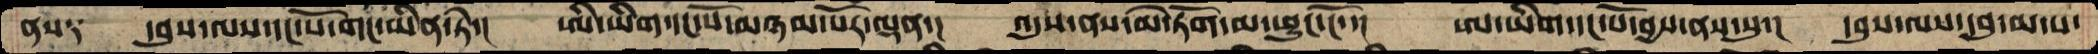ནས༑  དབུས་ལས་དང་པོ་གང་ཡིན་ཏེ་།  ཨི་ཡིག་དང་པོ་མཉམ་པོར་ལྡན་།  འདུས་ནས་མེ་ཏོག་མ་ཕྱུང་ངོ་་།  ཨ་ཡིག་དང་པོ་བྱས་ནས་སུ་།  དབུས་ལས་དབུ་མ་ས་
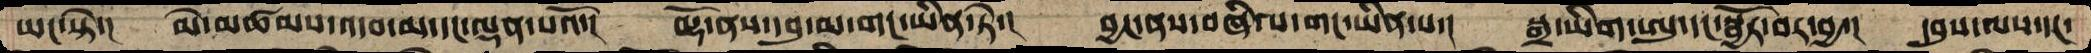ཡང་སྟེ་།  མེ་མཚམས་འདབ་མ་དང་ལྡན་པའོ་།  ལྷོ་ནས་དབུ་མ་གང་ཡིན་ཏེ་།  བྱང་ནས་བཞི་པ་གང་ཡིན་པ་།  སྒྲ་ཡིག་ཨུ་དང་སྦྱོར་བར་བྱ་།  དབུས་ལས་དང་
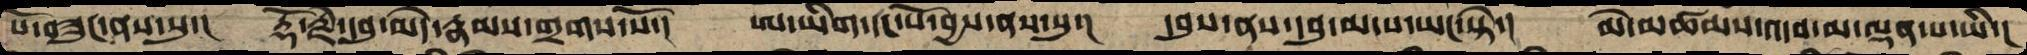པོ་བཟུང་ནས་སུ་།  རྡོ་རྗེ་དབུ་མེད་རྣམས་གྲགས་སོ་།  ཨ་ཡིག་དང་པོ་བྱས་ནས་སུ་།  དབུས་ནས་དབུ་མ་པ་ཡང་སྟེ་།  མེ་མཚམས་འདབ་མ་ལྡན་པ་ཡི་།
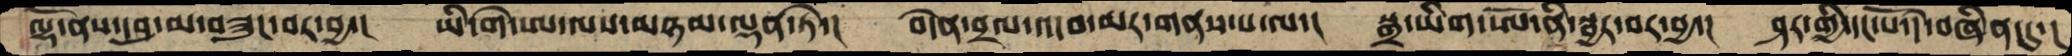ལྷོ་ནས་དབུ་མ་བཟུང་བར་བྱ་།  ཡི་གེ་ཨ་ལས་མཉམ་ལྡན་ཏེ་།  བདེན་བྲལ་འདབ་མར་གནས་པ་ལ་།  སྒྲ་ཡིག་ཨོ་ནི་སྦྱར་བར་བྱ་།  ཤར་གྱི་དང་པོ་དེ་བཞིན་དུ་།
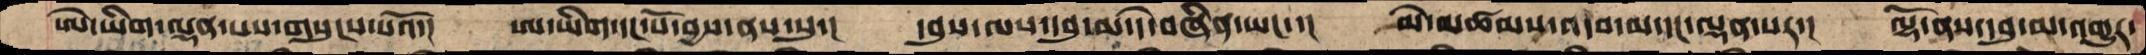ཨེ་ཡིག་ལྡན་པས་གསུངས་པའོ་།  ཨ་ིཡིག་དང་པོ་བྱས་ནས་སུ་།  དབུས་ལས་དབུ་མ་དེ་བཞིན་ཡང་་།  མེ་མཚམས་འདབ་མ་དང་ལྡན་པར་།  ལྷོ་ནས་དབུ་མ་འགྱུར་
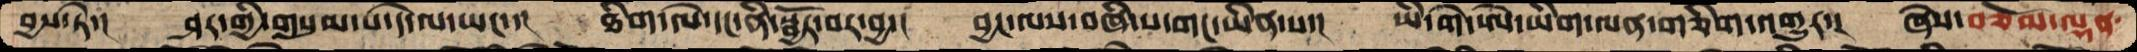བྱས་ཏེ་།  ཤར་གྱི་གསུམ་པ་དེ་ལ་ཡང་་།  ཐིག་ལེ་དང་ནི་སྦྱོར་བར་བྱ་།  བྱང་ལས་བཞི་པ་གང་ཡིན་པ་།  ཡི་གེ་ཨེ་ཡིག་ལན་གཅིག་འགྱུར་།  ཞེས་བཅོམ་ལྡན་
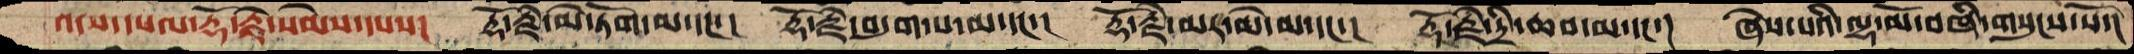འདས་དཔལ་རྡོ་རྗེ་སེམས་དཔས་།  རྡོ་རྗེ་མེ་ཏོག་མ་དང་་།  རྡོ་རྗེ་བདུག་པ་མ་དང་་།  རྡོ་རྗེ་མར་མེ་མ་དང་་།  རྡོ་རྗེ་དྲི་ཆབ་མ་དང་་།  ཞེས་པའི་ལྷ་མོ་བཞི་གསུངས་སོ་།
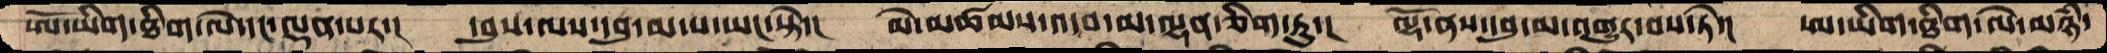ཨོ་ཡིག་ཐིག་ལེ་དང་ལྡན་པར་།  དབུས་ལས་དབུ་མ་པ་ཡང་སྟེ་།  མེ་མཚམས་འདབ་མ་ལྷན་ཅིག་ཏུ་།  ལྷོ་ནས་དབུ་མ་འགྱུར་བས་ཏེ་།  ཨ་ཡིག་ཐིག་ལེ་མཉཾ་
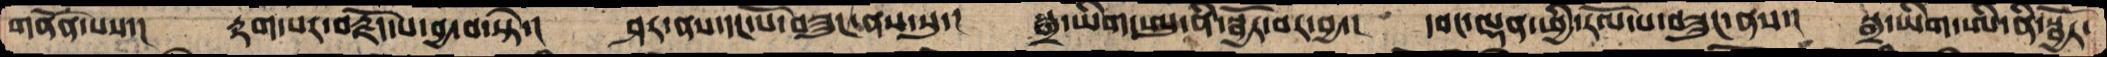གནོན་པས་།  རྟག་པར་བརྗོད་པ་བྱ་བ་སྟེ་།  ཤར་ནས་དང་པོ་བཟུང་ནས་སུ་།  སྒྲ་ཡིག་ཨུ་ནི་སྦྱོར་བར་བྱ་།  དབང་ལྡན་ཕྱི་རོལ་ས་བཟུང་ནས་།  སྒྲ་ཡིག་ཨི་ནི་སྦྱོར་
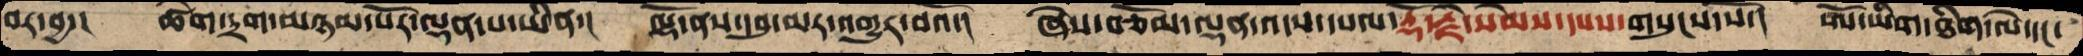བར་བྱ་།  ཚེག་དྲག་མཉམ་པོར་ལྡན་པ་ཡིན་།  ལྷོ་ནས་དབུ་མར་འགྱུར་བའོ་།  ཞེས་བཅོམ་ལྡན་འདས་དཔལ་རྡོ་རྗེ་སེམས་དཔས་གསུངས་སོ་།  ཨོ་ཡིག་ཐིག་ལེ་དང་
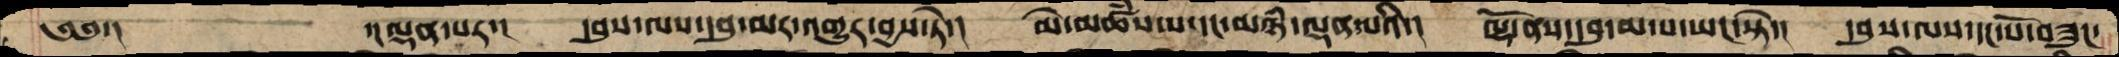༄༅་།    ་།ལྡན་པར་།  དབུས་ལས་དབུ་མར་འགྱུར་བྱས་ཏེ་།  མེ་མཚཾས་ས་དང་མཉཾ་ལྡན་པའི་།  ལྷོ་ནས་དབུ་མ་པ་ཡང་སྟེ་།  དབུས་ལས་དང་པོ་བཟུང་
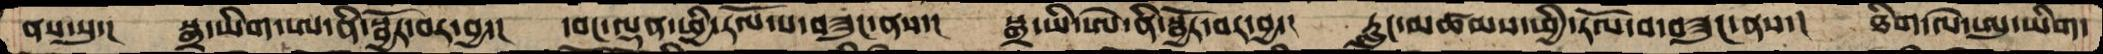ནས་སུ་།  སྒྲ་ཡིག་ཨ་ནི་སྦྱོར་བར་བྱ་།  དབང་ལྡན་ཕྱི་རོལ་ས་བཟུང་ནས་།  སྒྲ་ཡི་ཨེ་ནི་སྦྱོར་བར་བྱ་།  རླུང་མཚམས་ཕྱི་རོལ་བ་བཟུང་ནས་།  ཐིག་ལེ་ཨུ་ཡིག་
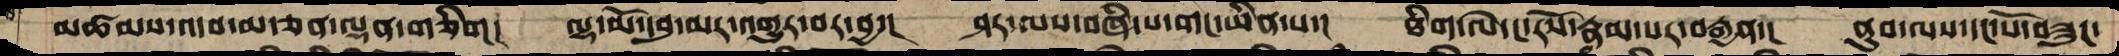མཚམས་འདབ་མ་ཅན་ལྡན་གཅིག། ལྷ་མོ་དབུ་མར་འགྱུར་བར་བྱ་། ཤར་ལས་བཞི་པ་གང་ཡིན་པ་། ཐིག་ལེ་ང་རོས་རྣམ་པར་བརྒྱན་། ནུབ་ལས་དང་པོ་བཟུང་
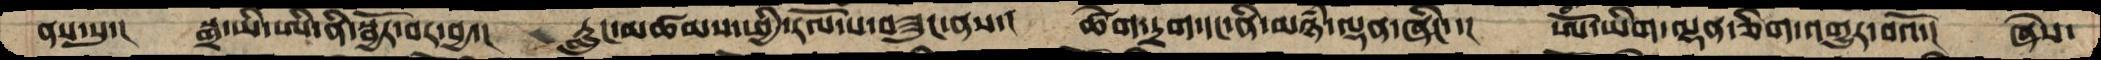ནས་སུ་།  སྒྲ་ཡི་ཨི་ནི་སྦྱོར་བར་བྱ་།  རླུང་མཚམས་ཕྱི་རོལ་པ་བཟུང་ནས་།  ཚེག་དྲག་དང་ནི་མཉཾ་ལྡན་ཞིང་་།  ཨོཾ་ཡིག་ལྷན་ཅིག་འགྱུར་བའོ་།  ཞེས་
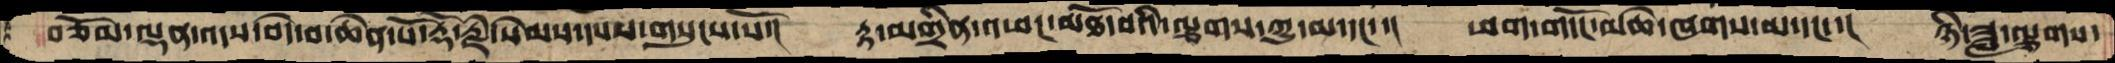བཅོམ་ལྡན་འདས་བདེ་བ་ཆེན་པོ་རྡོ་རྗེ་སེམས་དཔས་གསུངས་སོ་།  རྟ་མགྲིན་འཕཌ་མཐོ་བའི་ལྕགས་ཀྱུ་མ་དང་་།  ཕག་གདོང་མཆེ་ཞགས་མ་དང་་།   ཉི་ཟླ་ལྕགས་
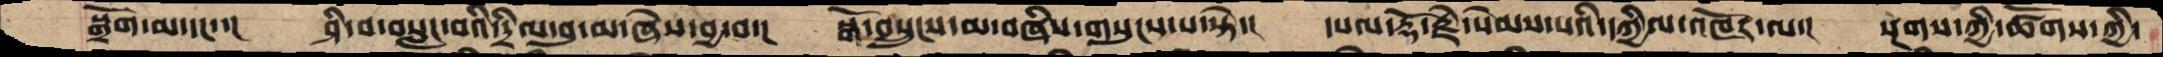སྒྲོག་མ་དང་་།  ཤི་བ་བསླང་བའི་དྲིལ་བུ་མ་ཞེས་བྱ་བ་།  སྒོ་བསྲུངས་མ་བཞིས་གསུངས་པ་སྟེ་།  དཔལ་རྡོ་རྗེ་སེམས་པའི་དཀྱིལ་འཁོར་ལ་།  སྔགས་ཀྱི་ཚོགས་ཀྱི་
